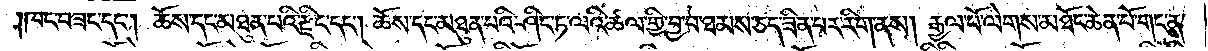།ཁང་བཟང་དང༌། ཆོས་དང་མཐུན་པའི་རྫིང་དང༌། ཆོས་དང་མཐུན་པའི་ཤིང་ཏ་ལའི་ཚལ་གྱི་བྱ་བ་ཐམས་ཅད་ཟིན་པར་རིག་ནས། རྒྱལ་པོ་ལེགས་མཐོང་ཆེན་པོ་གང་ན་
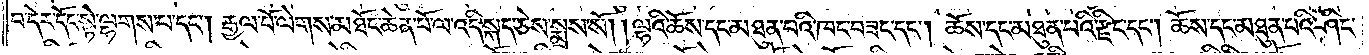བ་དེར་དོང་སྟེ་ལྷགས་པ་དང༌། རྒྱལ་པོ་ལེགས་མཐོང་ཆེན་པོ་ལ་འདི་སྐད་ཅེས་སྨྲས་སོ། །ལྷའི་ཆོས་དང་མཐུན་པའི་ཁང་བཟང་དང༌། ཆོས་དང་མཐུན་པའི་རྫིང་དང༌། ཆོས་དང་མཐུན་པའི་ཤིང་
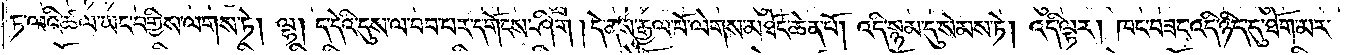ཏ་ལའི་ཚལ་ཡང་བགྱིས་ལགས་ཏེ། ལྷ། ད་དེའི་དུས་ལ་བབ་པར་དགོངས་ཤིག །དེ་ནས་རྒྱལ་པོ་ལེགས་མཐོང་ཆེན་པོ། འདི་སྙམ་དུ་སེམས་ཏེ། འདི་ལྟར། ཁང་བཟང་འདི་ཉིད་དུ་ཐོག་མར་
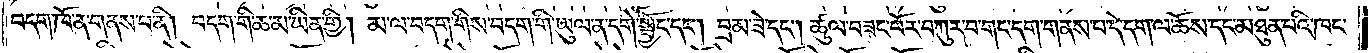བདག་ཁོ་ན་གནས་པ་ནི། བདག་གི་ཆ་མ་ཡིན་གྱི། མ་ལ་བདག་གིས་བདག་གི་ཡུལ་ན་དགེ་སྦྱོང་དང༌། བྲམ་ཟེ་དང༌། ཚུལ་བཟང་པོར་བཀུར་བ་གང་དག་གནས་པ་དེ་དག་ལ་ཆོས་དང་མཐུན་པའི་ཁང་
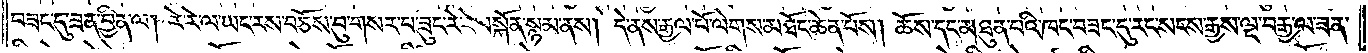བཟང་དུ་ཟན་བྱིན་ལ། རེ་རེ་ལ་ཡང་རས་བཅོས་བུ་གསར་པ་ཟུང་རེ་རེ་བསྐོན་སྙམ་ནས། དེ་ནས་རྒྱལ་པོ་ལེགས་མཐོང་ཆེན་པོས། ཆོས་དང་མཐུན་པའི་ཁང་བཟང་དུ་རང་སངས་རྒྱས་ལྔ་བརྒྱ་ལ་ཟན་
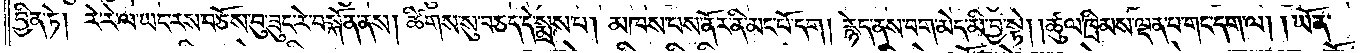བྱིན་ཏེ། རེ་རེ་ལ་ཡང་རས་བཅོས་བུ་ཟུང་རེ་བསྐོན་ནས། ཚིགས་སུ་བཅད་དེ་སྨྲས་པ། མཁས་པས་ནོར་ནི་མང་པོ་དག །རྙེད་ནས་བག་མེད་མི་བྱ་སྟེ། །ཚུལ་ཁྲིམས་ལྡན་པ་གང་དག་ལ། །ཡོན་
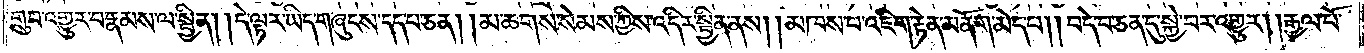གྲུབ་འགྱུར་བ་རྣམས་ལ་སྦྱིན། །དེ་ལྟར་ཡིད་གཞུངས་དད་པ་ཅན། །མ་ཆགས་སེམས་ཀྱིས་འདིར་སྦྱིན་ནས། །མཁས་པ་འཇིག་རྟེན་མནོག་མེད་པ། །བདེ་བ་ཅན་དུ་སྐྱེ་བར་འགྱུར། །རྒྱལ་པོ་
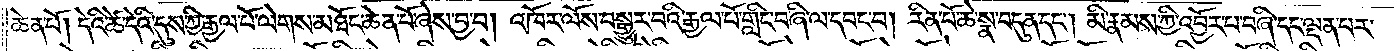ཆེན་པོ། དེའི་ཚེ་དེའི་དུས་ཀྱི་རྒྱལ་པོ་ལེགས་མཐོང་ཆེན་པོ་ཞེས་བྱ་བ། འཁོར་ལོས་བསྒྱུར་བའི་རྒྱལ་པོ་གླིང་བཞི་ལ་དབང་བ། རིན་པོ་ཆེ་སྣ་བདུན་དང༌། མི་རྣམས་ཀྱི་འབྱོར་པ་བཞི་དང་ལྡན་པར་
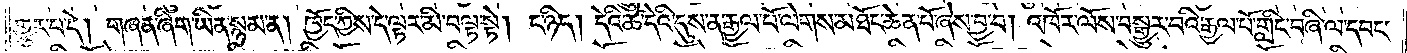གྱུར་པ་དེ། གཞན་ཞིག་ཡིན་སྙམ་ན། ཁྱོད་ཀྱིས་དེ་ལྟར་མི་བལྟ་སྟེ། ང་ཉིད། དེའི་ཚེ་དེའི་དུས་ན་རྒྱལ་པོ་ལེགས་མཐོང་ཆེན་པོ་ཞེས་བྱ་བ། འཁོར་ལོས་བསྒྱུར་བའི་རྒྱལ་པོ་གླིང་བཞི་ལ་དབང་
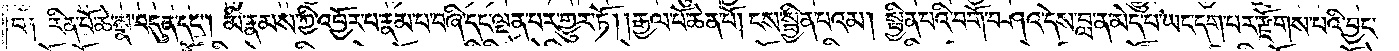བ༑ རིན་པོ་ཆེ་སྣ་བདུན་དང༌། མི་རྣམས་ཀྱི་འབྱོར་པ་རྣམ་པ་བཞི་དང་ལྡན་པར་གྱུར་ཏོ། །རྒྱལ་པོ་ཆེན་པོ། ངས་སྦྱིན་པའམ། སྦྱིན་པའི་བགོ་བཤའ་དེས་བླ་ན་མེད་པ་ཡང་དག་པར་རྫོགས་པའི་བྱང་
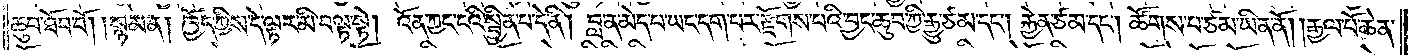ཆུབ་ཐོབ་བོ། །སྙམ་ན། ཁྱོད་ཀྱིས་དེ་ལྟར་མི་བལྟ་སྟེ། འོན་ཀྱང་ངའི་སྦྱིན་པ་དེ་ནི། བླ་ན་མེད་པ་ཡང་དག་པར་རྫོགས་པའི་བྱང་ཆུབ་ཀྱི་རྒྱུ་ཙམ་དང༌། རྐྱེན་ཙམ་དང༌། ཚོགས་པ་ཙམ་ཡིན་ནོ།    །རྒྱལ་པོ་ཆེན་
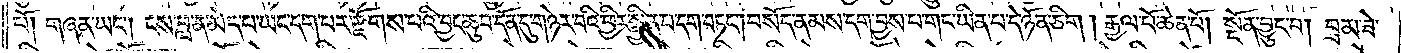པོ། གཞན་ཡང༌། ངས་བླ་ན་མེད་པ་ཡང་དག་པར་རྫོགས་པའི་བྱང་ཆུབ་དོན་དུ་གཉེར་བའི་ཕྱིར་སྦྱིན་པ་དག་བཏང༌། བསོད་ནམས་དག་བྱས་པ་གང་ཡིན་པ་དེ་ཉོན་ཅིག །རྒྱལ་པོ་ཆེན་པོ། སྔོན་བྱུང་བ། བྲམ་ཟེ་
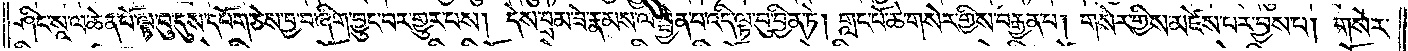ཤིང་སཱ་ལ་ཆེན་པོ་ལྟ་བུ་དུས་དཔོག་ཅེས་བྱ་བ་ཞིག་བྱུང་བར་གྱུར་པས། དེས་བྲམ་ཟེ་རྣམས་ལ་སྦྱིན་པ་འདི་ལྟ་བུ་བྱིན་ཏེ། གླང་པོ་ཆེ་གསེར་གྱིས་བརྒྱན་པ། གསེར་གྱིས་མཛེས་པར་བྱས་པ། གསེར་
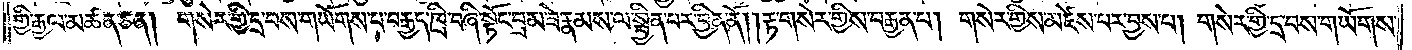གྱི་རྒྱལ་མཚན་ཅན། གསེར་གྱི་དྲ་བས་གཡོགས་པ་བརྒྱད་ཁྲི་བཞི་སྟོང་བྲམ་ཟེ་རྣམས་ལ་སྦྱིན་པར་བྱིན་ནོ། །རྟ་གསེར་གྱིས་བརྒྱན་པ། གསེར་གྱིས་མཛེས་པར་བྱས་པ། གསེར་གྱི་དྲ་བས་གཡོགས་
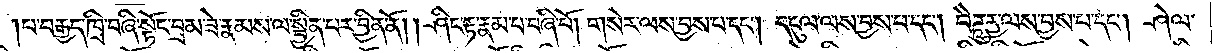པ་བརྒྱད་ཁྲི་བཞི་སྟོང་བྲམ་ཟེ་རྣམས་ལ་སྦྱིན་པར་བྱིན་ནོ། ཤིང་རྟ་རྣམ་པ་བཞི་པོ། གསེར་ལས་བྱས་པ་དང༌། དངུལ་ལས་བྱས་པ་དང༌། བཻ་ཌཱུརྱ་ལས་བྱས་པ་དང༌། ཤེལ་
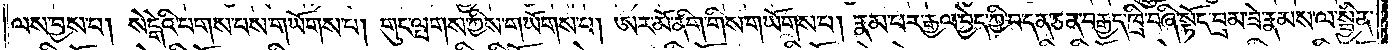ལས་བྱས་པ། སེངྒེའི་པགས་པས་གཡོགས་པ། གུང་ལྤགས་ཀྱིས་གཡོགས་པ། ཨར་མོ་ནིག་གིས་གཡོགས་པ། རྣམ་པར་རྒྱལ་བྱེད་ཀྱི་བ་དན་ཅན་བརྒྱད་ཁྲི་བཞི་སྟོང་བྲམ་ཟེ་རྣམས་ལ་སྦྱིན་
